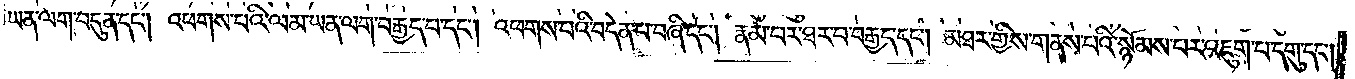ཡན་ལག་བདུན་དང༌། འཕགས་པའི་ལམ་ཡན་ལག་བརྒྱད་པ་དང༌། འཕགས་པའི་བདེན་པ་བཞི་དང༌། རྣམ་པར་ཐར་བ་བརྒྱད་དང༌། མཐར་གྱིས་གནས་པའི་སྙོམས་པར་འཇུག་པ་དགུ་དང༌།
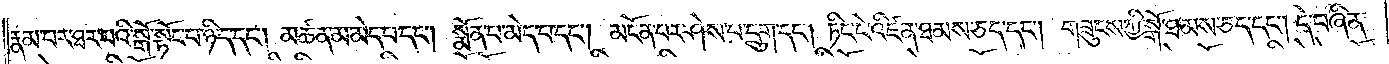རྣམ་པར་ཐར་པའི་སྒོ་སྟོང་པ་ཉིད་དང༌། མཚན་མ་མེད་པ་དང༌། སྨོན་པ་མེད་པ་དང༌། མངོན་པར་ཤེས་པ་དྲུག་དང༌། ཏིང་ངེ་འཛིན་ཐམས་ཅད་དང༌། གཟུངས་ཀྱི་སྒོ་ཐམས་ཅད་དང༌། དེ་བཞིན་
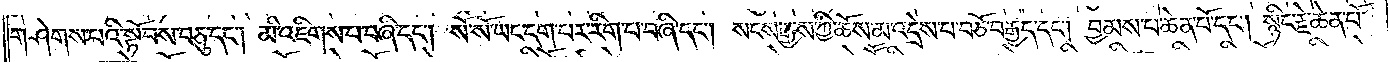གཤེགས་པའི་སྟོབས་བཅུ་དང༌། མི་འཇིགས་པ་བཞི་དང༌། སོ་སོ་ཡང་དག་པར་རིག་པ་བཞི་དང༌། སངས་རྒྱས་ཀྱི་ཆོས་མ་འདྲེས་པ་བཅོ་བརྒྱད་དང༌། བྱམས་པ་ཆེན་པོ་དང༌། སྙིང་རྗེ་ཆེན་པོ་
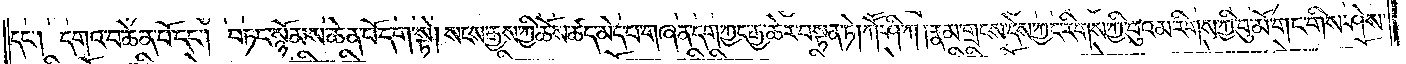དང༌། དགའ་བ་ཆེན་པོ་དང༌། བཏང་སྙོམས་ཆེན་པོ་དག་སྟེ། སངས་རྒྱས་ཀྱི་ཆོས་ཚད་མེད་པ་གཞན་དག་ཀྱང་རྒྱ་ཆེར་བསྟན་ཏེ། །ཀཽ་ཤི་ཀ །རྣམ་གྲངས་དེས་ཀྱང་རིགས་ཀྱི་བུའམ་རིགས་ཀྱི་བུ་མོ་གང་གིས་ཤེས་
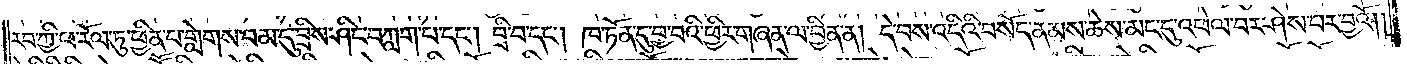རབ་ཀྱི་ཕ་རོལ་ཏུ་ཕྱིན་པ་གླེགས་བམ་དུ་བྲིས་ཤིང་བཀླག་པ་དང༌། བྲི་བ་དང༌། ཁ་ཏོན་དུ་བྱ་བའི་ཕྱིར་གཞན་ལ་བྱིན་ན། དེ་བས་འདིའི་བསོད་ནམས་ཆེས་མང་དུ་འཕེལ་བར་ཤེས་པར་བྱའོ། །
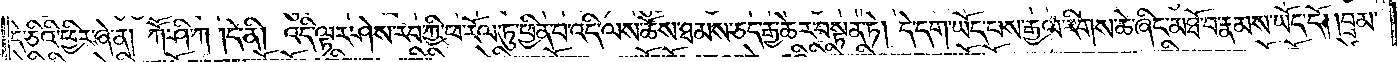དེ་ཅིའི་ཕྱིར་ཞེ་ན། ཀཽ་ཤི་ཀ །དེ་ནི། འདི་ལྟར་ཤེས་རབ་ཀྱི་ཕ་རོལ་ཏུ་ཕྱིན་པ་འདི་ལས་ཆོས་ཐམས་ཅད་རྒྱ་ཆེར་བསྟན་ཏེ། དེ་དག་ཡོད་པས་རྒྱལ་རིགས་ཆེ་ཞིང་མཐོ་བ་རྣམས་ཡོད་དོ། །བྲམ་
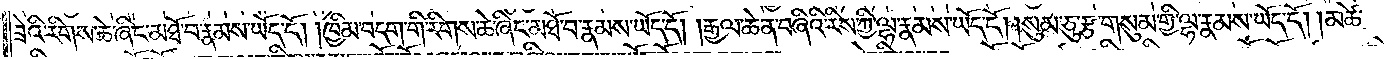ཟེའི་རིགས་ཆེ་ཞིང་མཐོ་བ་རྣམས་ཡོད་དོ། །ཁྱིམ་བདག་གི་རིགས་ཆེ་ཞིང་མཐོ་བ་རྣམས་ཡོད་དོ། །རྒྱལ་ཆེན་བཞིའི་རིས་ཀྱི་ལྷ་རྣམས་ཡོད་དོ། །སུམ་ཅུ་རྩ་གསུམ་གྱི་ལྷ་རྣམས་ཡོད་དོ། །མཚེ་
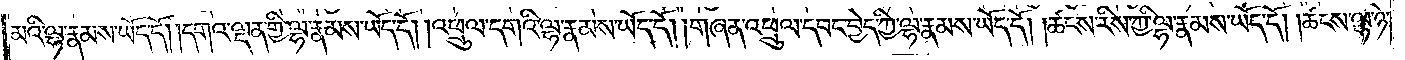མའི་ལྷ་རྣམས་ཡོད་དོ། །དགའ་ལྡན་གྱི་ལྷ་རྣམས་ཡོད་དོ། །འཕྲུལ་དགའི་ལྷ་རྣམས་ཡོད་དོ། །གཞན་འཕྲུལ་དབང་བྱེད་ཀྱི་ལྷ་རྣམས་ཡོད་དོ། །ཚངས་རིས་ཀྱི་ལྷ་རྣམས་ཡོད་དོ། །ཚངས་ལྷ་ཉེ་
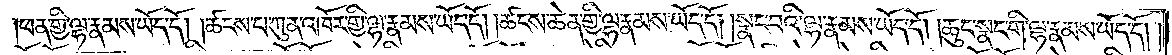ཕན་གྱི་ལྷ་རྣམས་ཡོད་དོ། །ཚངས་པ་ཀུན་འཁོར་གྱི་ལྷ་རྣམས་ཡོད་དོ། །ཚངས་ཆེན་གྱི་ལྷ་རྣམས་ཡོད་དོ། །སྣང་བའི་ལྷ་རྣམས་ཡོད་དོ། །ཆུང་སྣང་གི་ལྷ་རྣམས་ཡོད་དོ། །
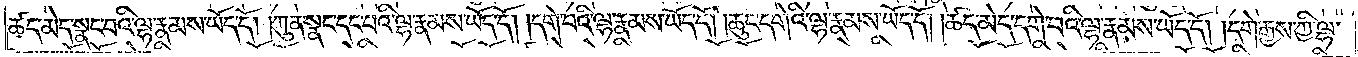ཚད་མེད་སྣང་བའི་ལྷ་རྣམས་ཡོད་དོ། །ཀུན་སྣང་དང་བའི་ལྷ་རྣམས་ཡོད་དོ། །དགེ་བའི་ལྷ་རྣམས་ཡོད་དོ། །ཆུང་དགེའི་ལྷ་རྣམས་ཡོད་དོ། །ཚད་མེད་དགེ་བའི་ལྷ་རྣམས་ཡོད་དོ། དགེ་རྒྱས་ཀྱི་ལྷ་
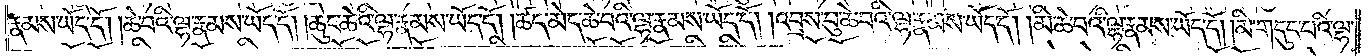རྣམས་ཡོད་དོ། །ཆེ་བའི་ལྷ་རྣམས་ཡོད་དོ། །ཆུང་ཆེའི་ལྷ་རྣམས་ཡོད་དོ། །ཚད་མེད་ཆེ་བའི་ལྷ་རྣམས་ཡོད་དོ། །འབྲས་བུ་ཆེ་བའི་ལྷ་རྣམས་ཡོད་དོ། མི་ཆེ་བའི་ལྷ་རྣམས་ཡོད་དོ། །མི་གདུང་བའི་ལྷ་
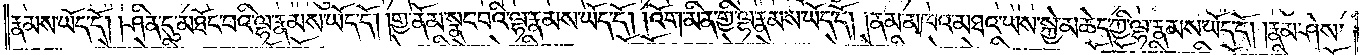རྣམས་ཡོད་དོ། །ཤིན་ཏུ་མཐོང་བའི་ལྷ་རྣམས་ཡོད་དོ། །གྱ་ནོམ་སྣང་བའི་ལྷ་རྣམས་ཡོད་དོ། །འོག་མིན་གྱི་ལྷ་རྣམས་ཡོད་དོ། །ནམ་མཁའ་མཐའ་ཡས་སྐྱེ་མཆེད་ཀྱི་ལྷ་རྣམས་ཡོད་དོ། །རྣམ་ཤེས་
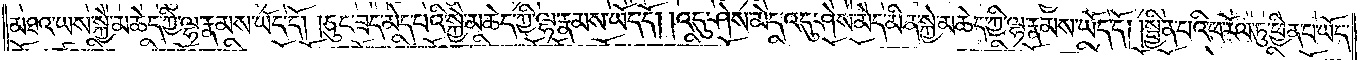མཐའ་ཡས་སྐྱེ་མཆེད་ཀྱི་ལྷ་རྣམས་ཡོད་དོ། །ཅུང་ཟད་མེད་པའི་སྐྱེ་མཆེད་ཀྱི་ལྷ་རྣམས་ཡོད་དོ། །འདུ་ཤེས་མེད་འདུ་ཤེས་མེད་མིན་སྐྱེ་མཆེད་ཀྱི་ལྷ་རྣམས་ཡོད་དོ། །སྦྱིན་པའི་ཕ་རོལ་ཏུ་ཕྱིན་པ་ཡོད་
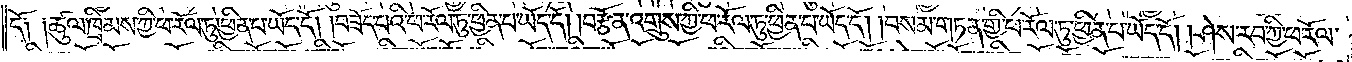དོ། །ཚུལ་ཁྲིམས་ཀྱི་ཕ་རོལ་ཏུ་ཕྱིན་པ་ཡོད་དོ། །བཟོད་པའི་ཕ་རོལ་ཏུ་ཕྱིན་པ་ཡོད་དོ། །བརྩོན་འགྲུས་ཀྱི་ཕ་རོལ་ཏུ་ཕྱིན་པ་ཡོད་དོ། །བསམ་གཏན་གྱི་ཕ་རོལ་ཏུ་ཕྱིན་པ་ཡོད་དོ། །ཤེས་རབ་ཀྱི་ཕ་རོལ་
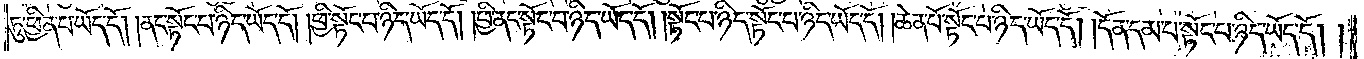ཏུ་ཕྱིན་པ་ཡོད་དོ། །ནང་སྟོང་པ་ཉིད་ཡོད་དོ། །ཕྱི་སྟོང་པ་ཉིད་ཡོད་དོ། །ཕྱི་ནང་སྟོང་པ་ཉིད་ཡོད་དོ། །སྟོང་པ་ཉིད་སྟོང་པ་ཉིད་ཡོད་དོ། །ཆེན་པོ་སྟོང་པ་ཉིད་ཡོད་དོ། །དོན་དམ་པ་སྟོང་པ་ཉིད་ཡོད་དོ། །
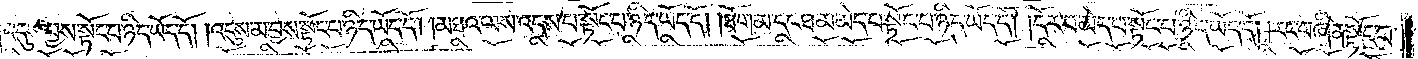འདུས་བྱས་སྟོང་པ་ཉིད་ཡོད་དོ། །འདུས་མ་བྱས་སྟོང་པ་ཉིད་ཡོད་དོ། །མཐའ་ལས་འདས་པ་སྟོང་པ་ཉིད་ཡོད་དོ། ཐོག་མ་དང་ཐ་མ་མེད་པ་སྟོང་པ་ཉིད་ཡོད་དོ། །དོར་བ་མེད་པ་སྟོང་པ་ཉིད་ཡོད་དོ། །རང་བཞིན་སྟོང་པ་
